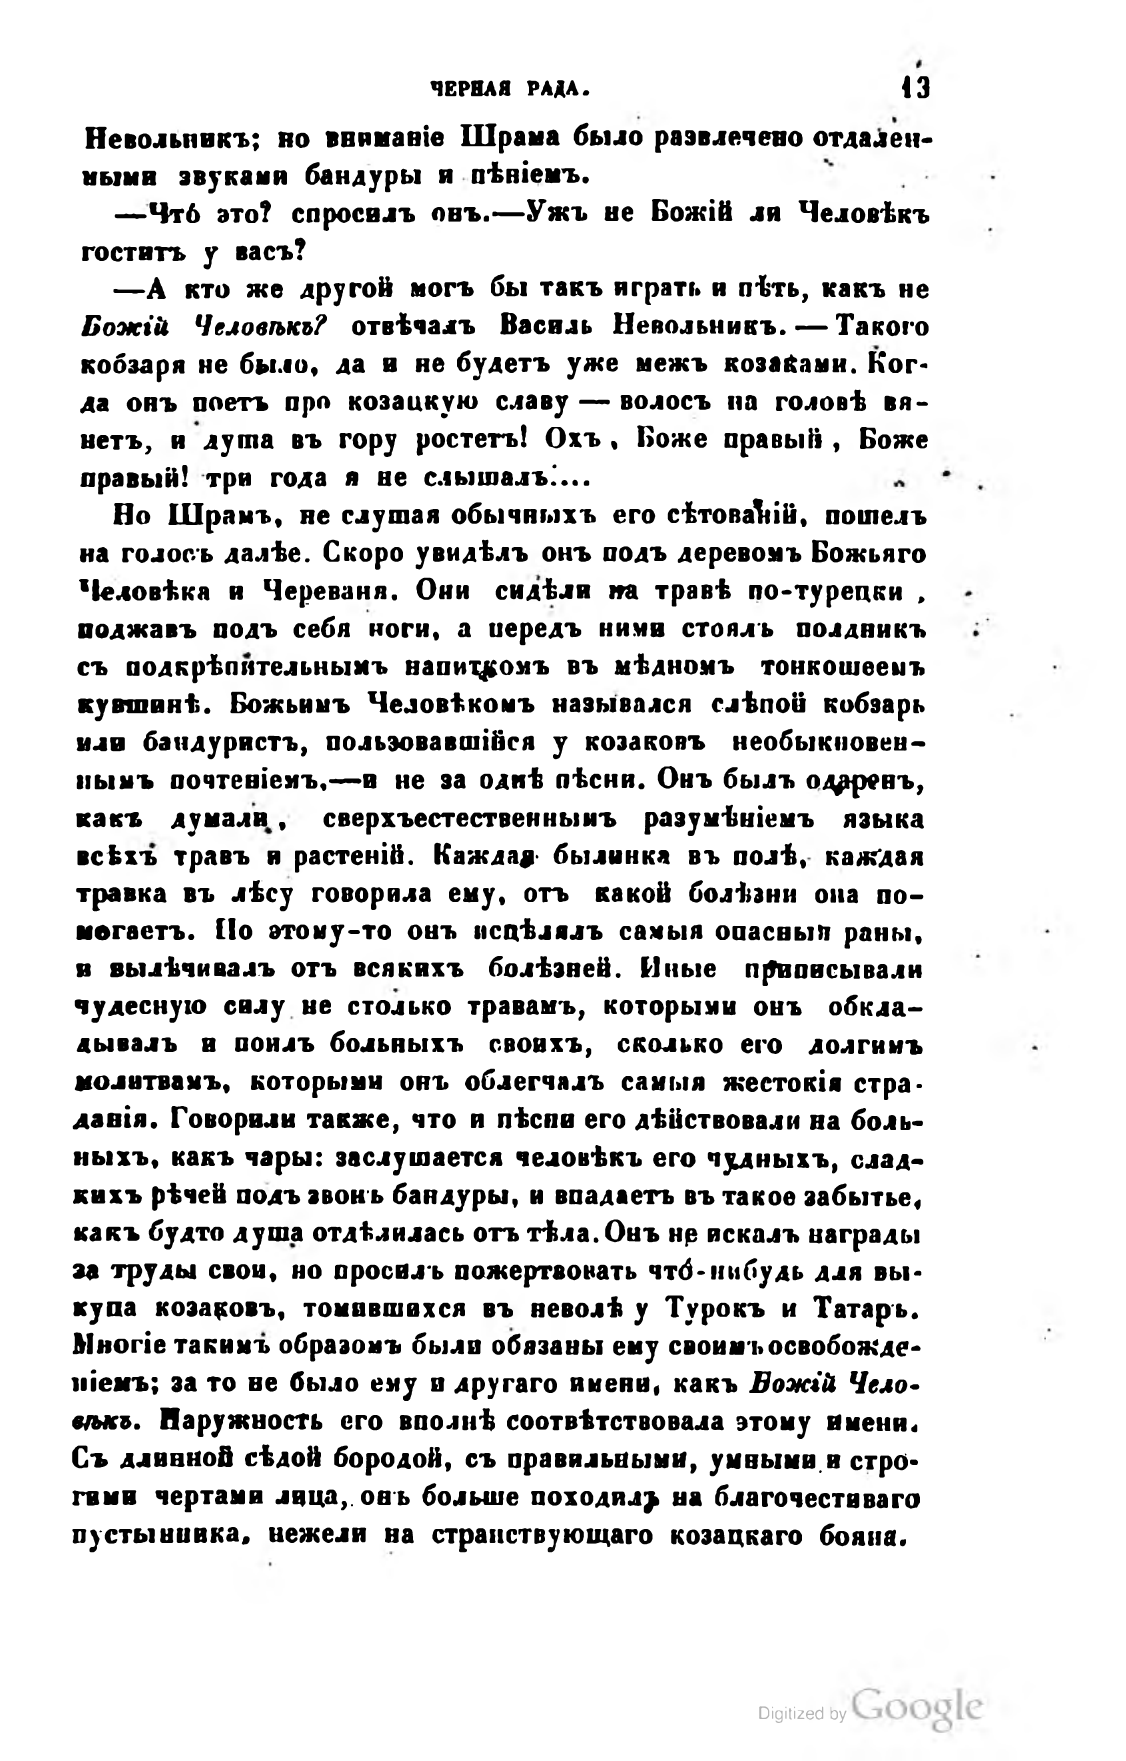ЧЕРНАЯ РАДА.                      13
Невольникъ; но вниманіе Шрама было развлечено отдаленными звуками бандуры и пѣніемъ.
— Что это? спросилъ онъ. — Ужъ не Божій ли Человѣкъ гоститъ у васъ?
— А кто же другой могъ бы такъ играть и пѣть, какъ не Божій Человѣкъ? отвѣчалъ Василь Невольникъ. — Такого кобзаря не было, да и не будетъ уже межъ козаками. Когда онъ поетъ про козацкую славу — волосъ на головѣ вянетъ, и душа въ гору ростетъ! Охъ, Боже правый, Боже правый! три года я не слышалъ...
Но Шрамъ, не слушая обычныхъ его сѣтованій, пошелъ на голосъ далѣе. Скоро увидѣлъ онъ подъ деревомъ Божьяго Человѣка и Череваня. Они сидѣли на травѣ по-турецки, поджавъ подъ себя ноги, а передъ ними стоялъ полдникъ съ подкрѣпительнымъ напиткомъ въ мѣдномъ тонкошеемъ кувшинѣ. Божьимъ Человѣкомъ назывался слѣпой кобзарь или бандуристъ, пользовавшійся у козаковъ необыкновеннымъ почтеніемъ, — и не за однѣ пѣсни. Онъ былъ одаренъ, какъ думали, сверхъестественнымъ разумѣніемъ языка всѣхъ травъ и растеній. Каждая былинка въ полѣ, каждая травка въ лѣсу говорила ему, отъ какой болѣзни она помогаетъ. По этому-то онъ исцѣлялъ самыя опасныя раны, и вылѣчивалъ отъ всякихъ болѣзней. Иные приписывали чудесную силу не столько травамъ, которыми онъ обкладывалъ и поилъ больныхъ своихъ, сколько его долгимъ молитвамъ, которыми онъ облегчалъ самыя жестокія страданія. Говорили также, что и пѣсни его дѣйствовали на больныхъ, какъ чары: заслушается человѣкъ его чудныхъ, сладкихъ рѣчей подъ звонъ бандуры, и впадаетъ въ такое забытье, какъ будто душа отдѣлилась отъ тѣла. Онъ не искалъ награды за труды свои, но просилъ пожертвовать что-нибудь для выкупа козаковъ, томившихся въ неволѣ у Турокъ и Татаръ. Многіе такимъ образомъ были обязаны ему своимъ освобожденіемъ; за то не было ему и другаго имени, какъ Божій Человѣкъ. Наружность его вполнѣ соотвѣтствовала этому имени. Съ длинной сѣдой бородой, съ правильными, умными и строгими чертами лица, онъ больше походил на благочестиваго пустынника, нежели на странствующаго козацкаго бояна.
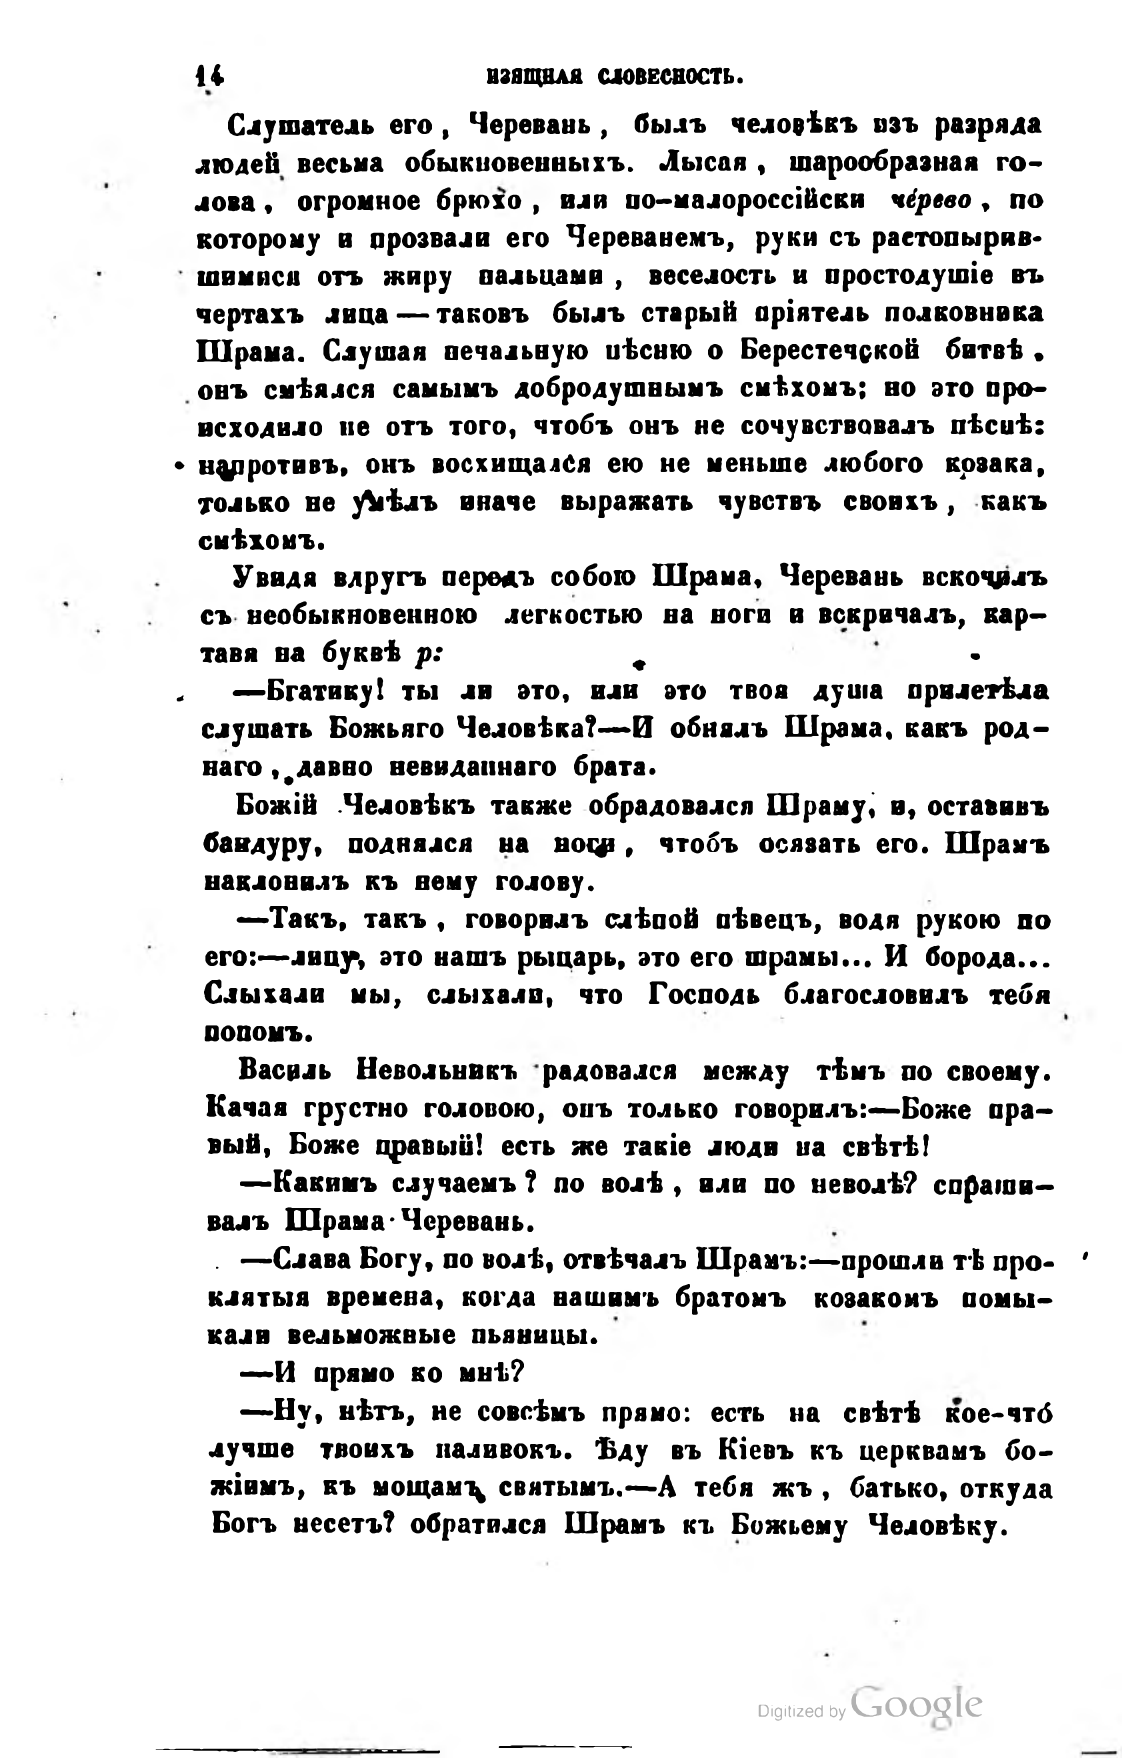14                     ИЗЯЩНАЯ СЛОВЕСНОСТЬ.
Слушатель его, Черевань, былъ человѣкъ изъ разряда людей весьма обыкновенныхъ. Лысая, шарообразная голова, огромное брюхо, или по-малороссійски черево, по которому и прозвали его Череванемъ, руки съ растопырившимися отъ жиру пальцами, веселость и простодушіе въ чертахъ лица — таковъ былъ старый пріятель полковника Шрама. Слушая печальную пѣсню о Берестечской битвѣ, онъ смѣялся самымъ добродушнымъ смѣхомъ; но это происходило не отъ того, чтобъ онъ не сочувствовалъ пѣснѣ: напротивъ, онъ восхищался ею не меньше любого козака, только не умѣлъ иначе выражать чувствъ своихъ, какъ смѣхомъ.
Увидя вдругъ передъ собою Шрама, Черевань вскочилъ съ необыкновенною легкостью на ноги и вскричалъ, картавя на буквѣ р:                          
— Бгатику! ты ли это, или это твоя душа прилетѣла слушать Божьяго Человѣка? — И обнялъ Шрама, какъ роднаго, давно невиданнаго брата.
Божій Человѣкъ также обрадовался Шраму, и, оставивъ бандуру, поднялся на ноги, чтобъ осязать его. Шрамъ наклонилъ къ нему голову.
— Такъ, такъ, говорилъ слѣпой пѣвецъ, водя рукою по его: — лицу, это нашъ рыцарь, это его шрамы... И борода… Слыхали мы, слыхали, что Господь благословилъ тебя попомъ.
Василь Невольникъ радовался между тѣмъ по своему. Качая грустно головою, онъ только говорилъ: — Боже правый, Боже правый! есть же такіе люди на свѣтѣ!
— Какимъ случаемъ? по волѣ, или по неволѣ? спрашивалъ Шрама Черевань.
— Слава Богу, по волѣ, отвѣчалъ Шрамъ: — прошли тѣ проклятыя времена, когда нашимъ братомъ козакомъ помыкали вельможные пьяницы.
— И прямо ко мнѣ?
— Ну, нѣтъ, не совсѣмъ прямо: есть на свѣтѣ кое-что лучше твоихъ наливокъ. Ѣду въ Кіевъ къ церквамъ божіимъ, къ мощам святымъ. — А тебя жъ, батько, откуда Богъ несетъ? обратился Шрамъ къ Божьему Человѣку.
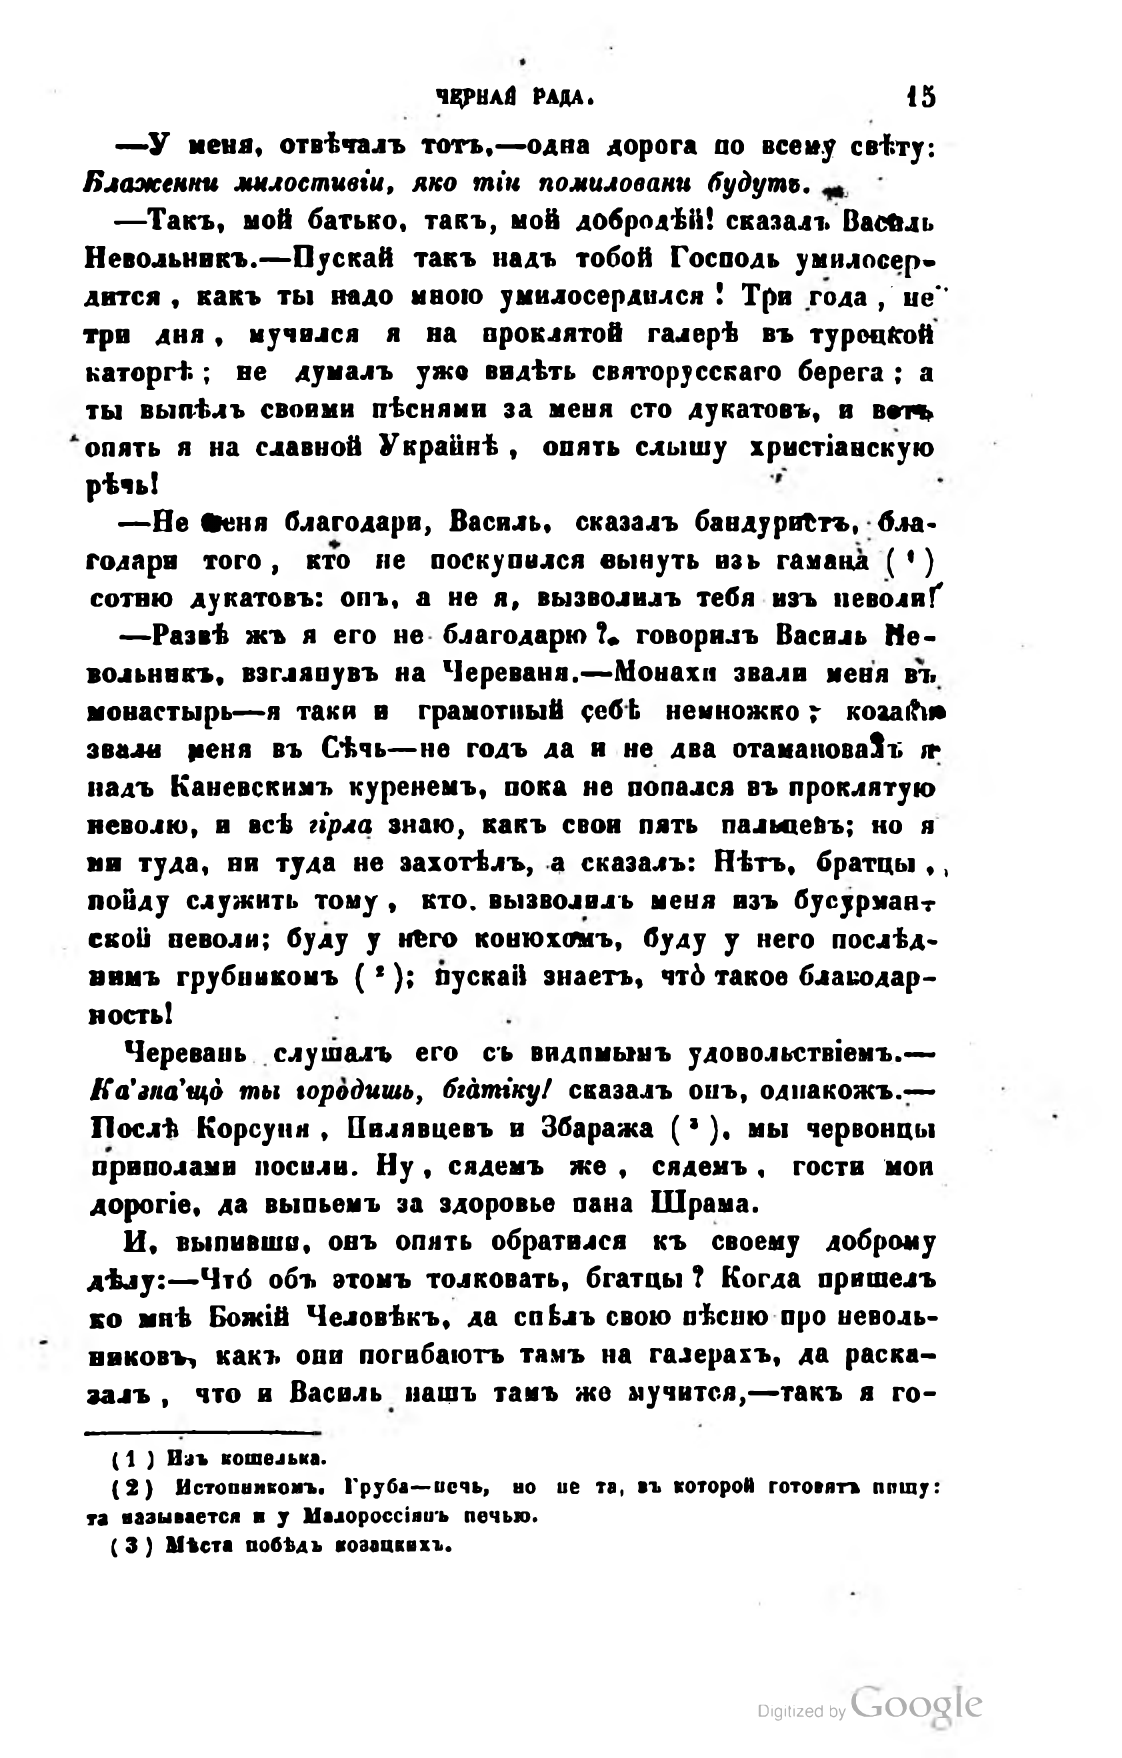ЧЕРНАЯ РАДА.                 15
— У меня, отвѣчалъ тотъ, — одна дорога по всему свѣту: Блаженни милостивіи, яко тіи помиловани будутъ.
— Такъ, мой батько, такъ, мой добродѣй! сказалъ Василь Невольникъ. — Пускай такъ надъ тобой Господь умилосердится, какъ ты надо мною умилосердился! Три года, не три дня, мучился я на проклятой галерѣ въ турецкой каторгѣ; не думалъ ужо видѣть святорусскаго берега; а ты выпѣлъ своими пѣснями за меня сто дукатовъ, и вотъ опять я на славной Украйнѣ, опять слышу христіанскую рѣчь!
— Не меня благодари, Василь, сказалъ бандуристъ, благодари того, кто не поскупился вынуть изъ гамана ( 1 ) сотню дукатовъ: онъ, а не я, вызволилъ тебя изъ неволи!
— Развѣ жъ я его не благодарю? говорилъ Василь Невольникъ, взглянувъ на Череваня. — Монахи звали меня въ монастырь — я таки и грамотный çeбѣ немножко; козаки звали меня въ Сѣчь — не годъ да и не два отамановалъ я надъ Каневскимъ куренемъ, пока не попался въ проклятую неволю, и всѣ гірла знаю, какъ свои пять пальцевъ; но я ни туда, ни туда не захотѣлъ, а сказалъ: Нѣтъ, братцы, пойду служить тому, кто вызволилъ меня изъ бусурманской неволи; буду у нѣго конюхомъ, буду у него послѣднимъ трубникомъ ( 2 ); пускай знаетъ, что такое благодарность!
Черевань слушалъ его съ видимымъ удовольствіемъ. — Ка’зна'що ты городишь, бгатіку! сказалъ онъ, однакожъ. — Послѣ Корсуни, Пилявцевъ и Збаража ( 3 ), мы червонцы приполами носили. Ну, сядемъ же, сядемъ, гости мои дорогіе, да выпьемъ за здоровье пана Шрама.
И, выпивши, онъ опять обратился къ своему доброму дѣлу: — Что объ этомъ толковать, бгатцы? Когда пришелъ ко мнѣ Божій Человѣкъ, да спѣлъ свою пѣсню про невольниковъ, какъ они погибаютъ тамъ на галерахъ, да расказалъ, что и Василь нашъ тамъ же мучится, — такъ я го-
—
( 1 ) Изъ кошелька.
( 2 ) Истопникомъ. Груба — печь, но не та, въ которой готовятъ пищу: та называется и у Малороссіянъ печью.
( 3 ) Мѣста побѣдъ козацкихъ.
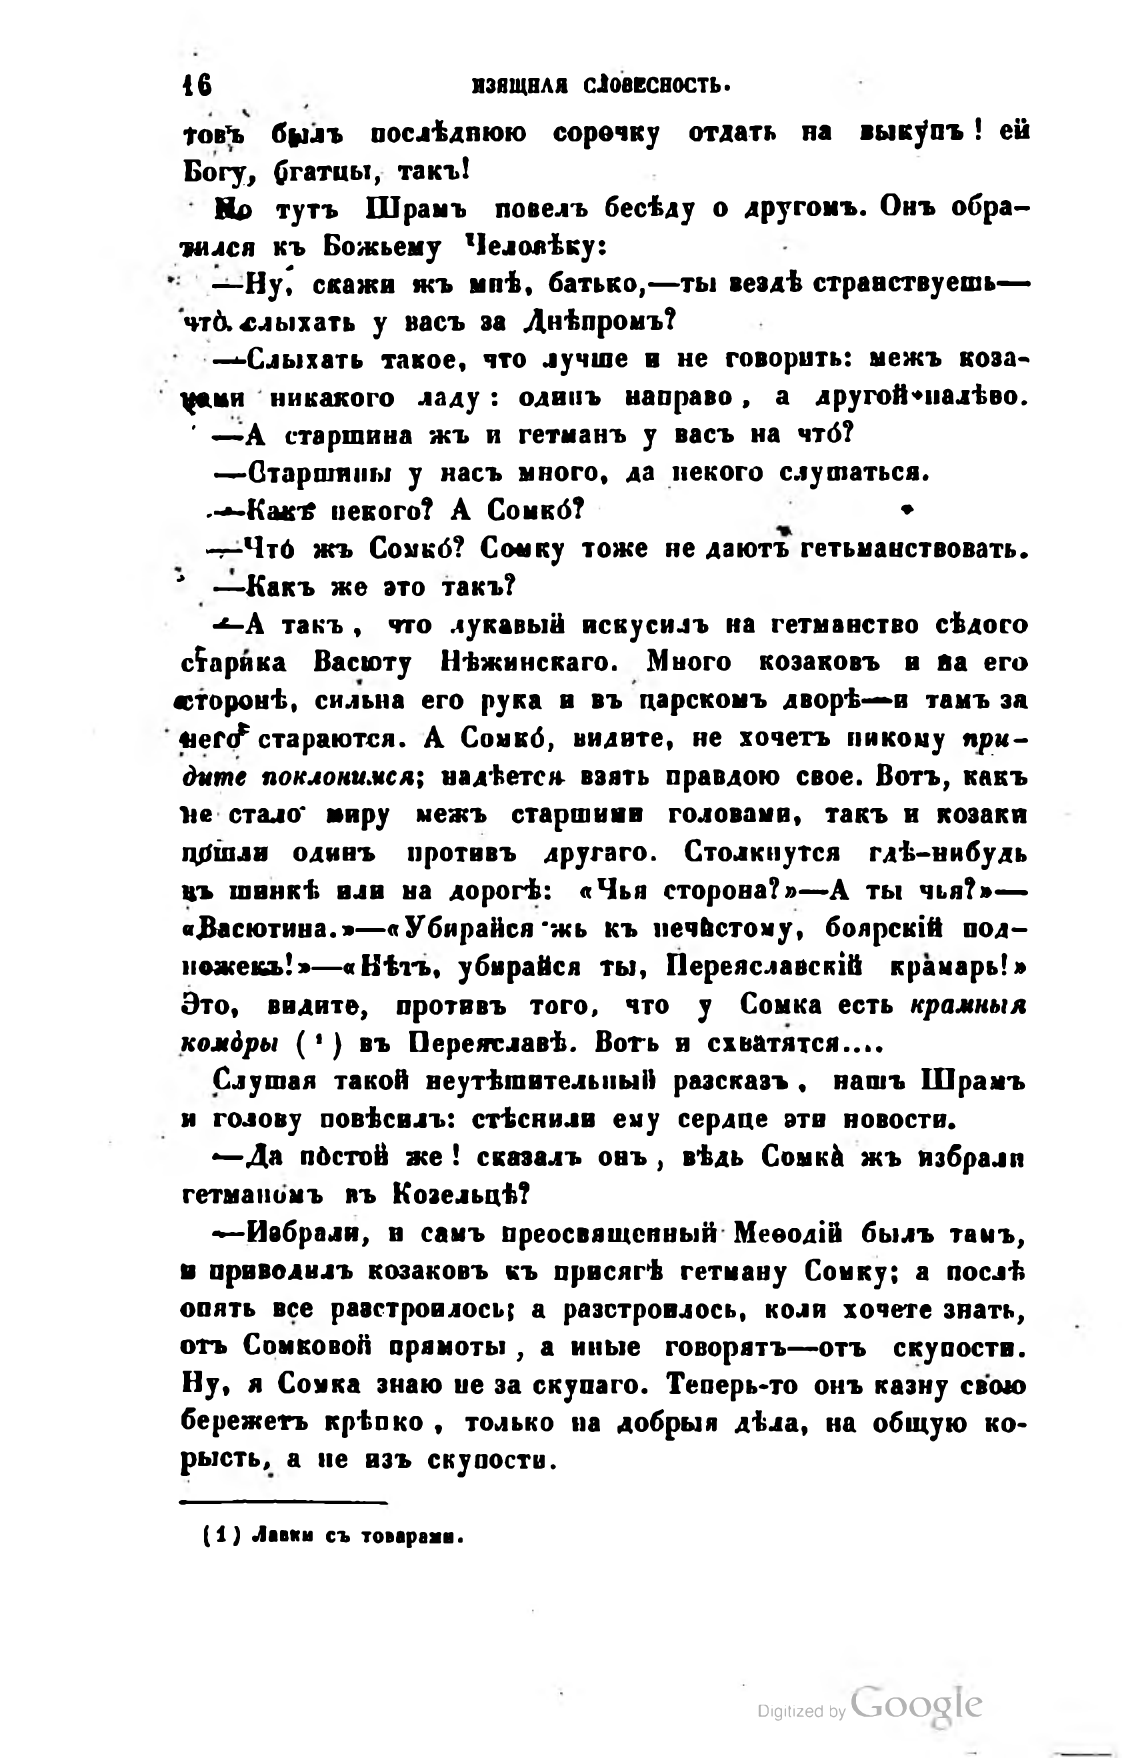16                         ИЗЯЩНАЯ СЛОВЕСНОСТЬ.
товъ былъ послѣднюю сорочку отдать на выкупъ! ей Богу, бгатцы, такъ!
Но тутъ Шрамъ повелъ бесѣду о другомъ. Онъ обратился къ Божьему Человѣку:
— Ну скажи жъ мнѣ, батько, — ты вездѣ странствуешь — что слыхать у васъ за Днѣпромъ?
— Слыхать такое, что лучше и не говорить: межъ козаками никакого ладу: одинъ направо, а другой налѣво.
— А старшина жъ и гетманъ у васъ на что?
— Старшины у насъ много, да некого слушаться.
— Какъ некого? А Сомко?
— Что жъ Сомко? Сомку тоже не даютъ гетьманствовать.
— Какъ же это такъ?
— А такъ, что лукавый искусилъ на гетманство сѣдого старика Васюту Нѣжинскаго. Много козаковъ и на его сторонѣ, сильна его рука и въ царскомъ дворѣ — и тамъ за него стараются. А Сомко, видите, не хочетъ никому придите поклонимся; надѣется взять правдою свое. Вотъ, какъ не стало миру межъ старшими головами, такъ и козаки пошли одинъ противъ другаго. Столкнутся гдѣ-нибудь въ шинкѣ или на дорогѣ: «Чья сторона?» — А ты чья?» — «Васютина.» — «Убирайся жъ къ нечистому, боярскій подножекъ»!» — «Нѣтъ, убирайся ты, Переяславскій крамарь!» Это, видите, противъ того, что у Сомка есть крамныя коморы ( 1 ) въ Переяславѣ. Вотъ и схватятся...
Слушая такой неутѣшительный разсказъ, нашъ Шрамъ и голову повѣсилъ: стѣснили ему сердце эти новости.
— Да постой же! сказалъ онъ, вѣдь Сомка жъ избрали гетманомъ въ Козельцѣ?
— Избрали, и самъ преосвященный Меѳодій былъ тамъ, и приводилъ козаковъ къ присягѣ гетману Сомку; а послѣ опять все разстроилось; а разстроилось, коли хочете знать, отъ Сомковой прямоты, а иные говорятъ — отъ скупости. Ну, я Сомка знаю не за скупаго. Теперь-то онъ казну свою бережетъ крѣпко, только на добрыя дѣла, на общую корысть, а не изъ скупости.
—
( 1 ) Лавки съ товарами.